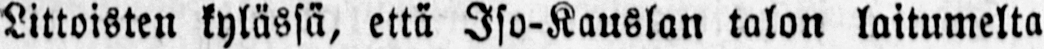Littoisten kylässä, että Iso-Kauslan talon laitumelta
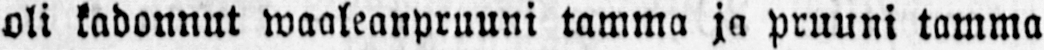oli kadonnut waaleanpruuni tamma ja pruuni tamma
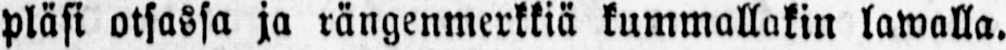pläsi otsassa ja rängenmerkkiä kummallakin lawalla.
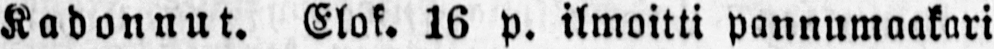Kadonnut. Elok. 16 p. ilmoitti pannumaakari
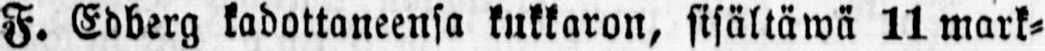F. Edberg kadottaneensa kukkaron, sisältäwä 11 mark-
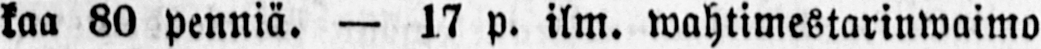kaa 80 penniä. — 17 p. ilm. wahtimestarinwaimo
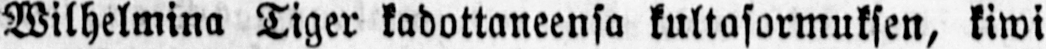Wilhelmina Tiger kadottaneensa kultasormuksen, kiwi
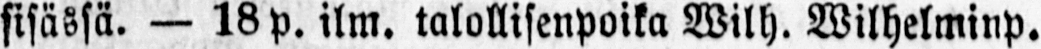sisässä. — 18 p. ilm. talollisenpoika Wilh. Wilhelminp.
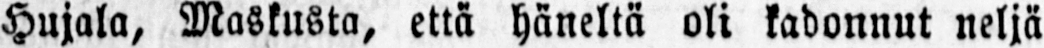Hujala, Maskusta, että häneltä oli kadonnut neljä
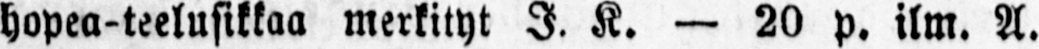hopea-teelusikkaa merkityt I. K. — 20 p. ilm. A.
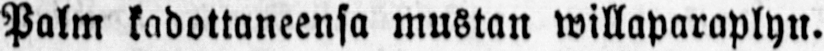Palm kadottaneensa mustan willaparaplyn.
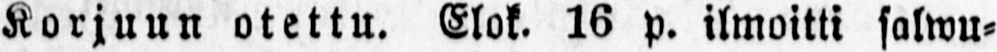Korjuun otettu. Elok. 16 p. ilmoitti salwu-
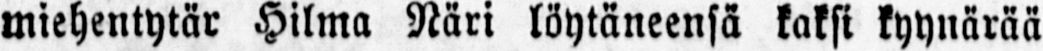miehentytär Hilma Näri löytäneensä kaksi kyynärää
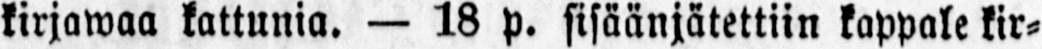kirjawaa kattunia. — 18 p. sisäänjätettiin kappale kir-
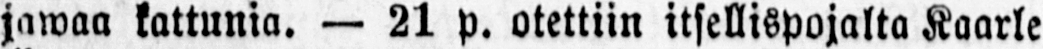jowaa kattunia. — 21 p. otettiin itsellispojalta Kaarle
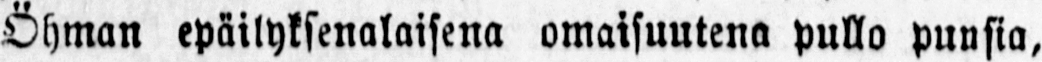Ahman epäilyksenalaisena omaisuutena pullo punsia,
